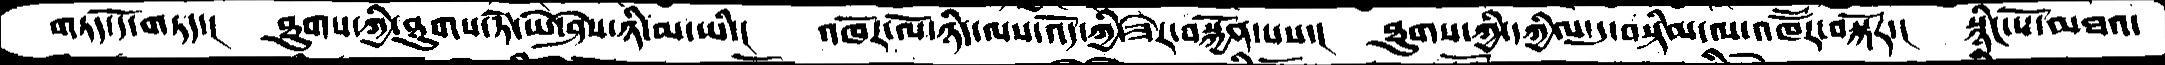གཏད་དོ་གཏད་།  ཐུགས་ཀྱི་ཐུགས་ཏེ་ཡེ་ཤེས་ཉི་མ་ཡི་།  འཁོར་ལོ་ཉིད་ལས་འོད་ཀྱི་ཟེར་བསྐྱོན་པས་།  ཐུགས་ཀྱི་དཀྱིལ་དུ་བསྟིམ་ལ་འཁཽར་བསྐོར་།  སྙིང་པོ་མཐའ་
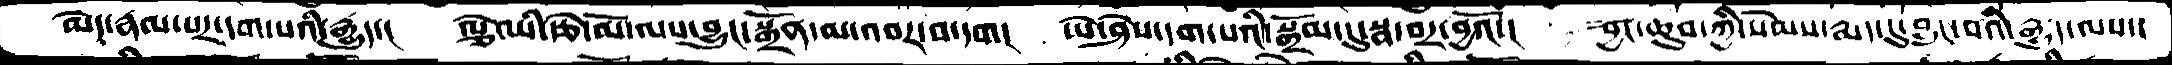མེད་རྣམ་པར་དག་པའི་རྒྱུད་།   ལྕེ་ཡི་རྩེ་མོ་ལས་བྱུང་སྒྲོན་མ་འབར་བ་དག།  ཡེ་ཤེས་དག་པའི་སྒྲོམ་དུ་སྣ་བར་བྱའོ་།  བྱང་ཆུབ་ཀྱི་སེམས་རྨད་དུ་བྱུང་བའི་རྒྱུད་ལས་།
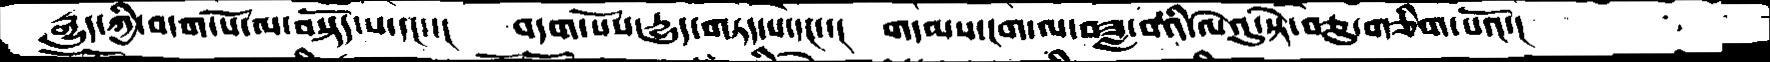རྒྱུད་ཀྱི་བདག་པོ་ལ་བསྟོད་པ་དང་་།  བདག་པོས་དྱུད་གཏད་པ་དང་་།  གདམས་ངག་ལ་བཟླ་བའི་ལེའུ་སྟེ་བཅུ་གཅིག་པའོ་།
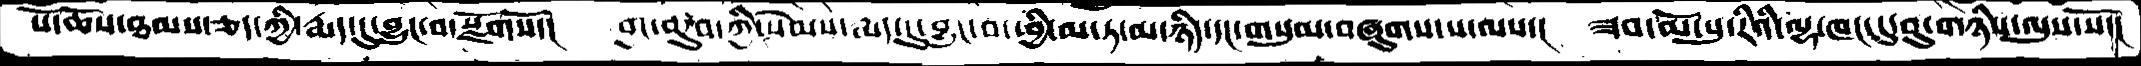སོ་ཆོས་ཐམས་ཅད་ཀྱི་རྨད་དུ་བྱུང་བ་སྫོགསོ་།  བྱང་ཆུབ་ཀྱི་སེམས་རྨད་དུ་བྱུང་བ་ཕྱི་མ་ཏ་མ་ཉིད་དང་གསུམ་ཞུགས་པ་ལས་།  ཟབ་མོ་སུ་རིའི་ལྷ་ཁང་དུ་བུ་གཉིས་ལུས་སོ་།
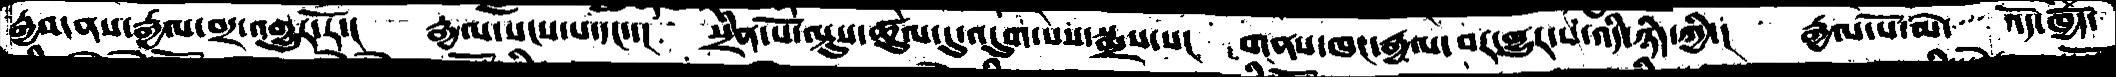རྒྱབ་ནས་རྒྱལ་བར་འགྱུར་རོ་།  རྒྱལ་སངས་པ་དང་་།  སྲིན་པོ་ལྟུས་ཚུལ་དུ་འདུག་པས་སྨྲས་པ།  གནས་ཁང་རྒྱལ་བར་གྱུར་པ་འདི་ཉིད་ཀྱི་།  རྒྱལ་པོ་མེ་  འོད་ཁྱེད་
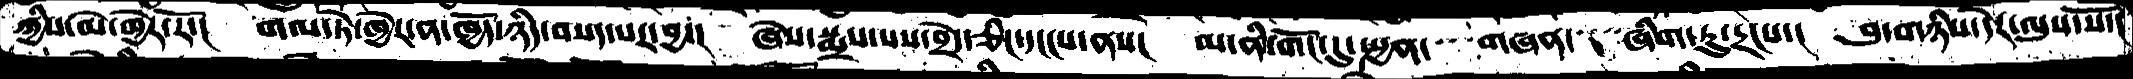ཀྱིས་མེ་ཁྱེར་རོ་།  གལ་ཏེ་ཁྱེར་ན་ཁྱོད་ཉིད་བསད་པར་བྱ་།  ཞེས་སྨྲས་པས་བྲེད་ཅིང་དངངས་ནས་།  མ་ནི་གོང་དུ་སྤྱན་   གཞན་   ཞིག་ཏུ་དྲངས་།  བུ་གཉིས་དེར་ལུས་སོ་།
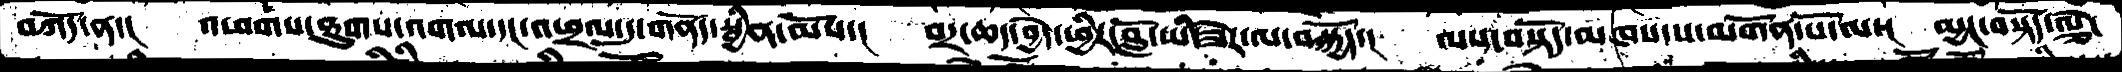བཀོད་ན་།  འཕགས་ཐུགས་འགལ་དང་འཕྲལ་དུ་གནོད་སྦྱིན་མོས་།  བར་ཆད་བྱེད་ཕྱིར་བློ་ཡི་ཟེར་ལ་བསྐྱོད་།  ལས་བསྟོད་མཁས་པ་མགོན་པོ་ལ་།  མྱང་བསྟོད་ལྕེ་
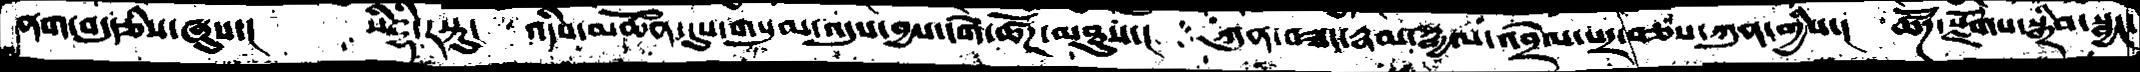ནག་བདུརྩིས་ཞུས་།     སིདྡྷི་རསྟུ་   འདིས་མཚོན་དུས་གསུམ་འདུས་བྱས་དགེ་ཚོཌ་མཐུས་།   ཀུན་བཟང་རྣམ་རྒྱལ་འབྲེལ་པར་བཅས་ཀུན་གྱིས་།    ཚོཌ་སྫོགས་སྒྲིབ་སྦྱང་
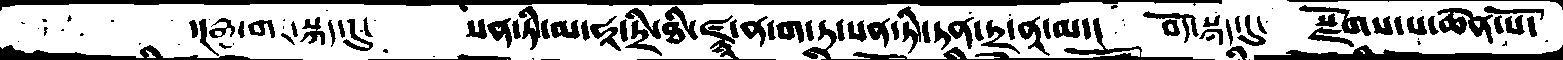་།རྒྱ་གར་སྐད་དུ་     སན་ཏི་མ་ཧཱ་ཏྲི་ཐི་ཛྙཱ་ན་ག་ཏ་སན་ཏི་ཏན་ཏྲ་ནཱ་མ་།    བོད་སྐད་དུ།    སྫོགས་པ་ཆེན་པོ་
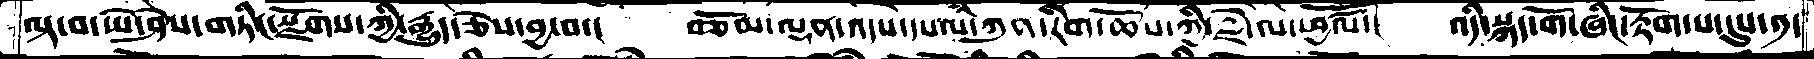ལྟ་བ་ཡེ་ཤེས་གཏིང་སྫོགས་ཀྱི་རྒྱུད་ཅེས་བྱ་བ་།    བཅོམ་ལྡན་འདས་དཔལ་ཀུན་རིག་ཆོས་ཀྱི་རྗེ་ལ་ཕྱཚལོ་།   འདི་སྐད་གོ་ཞིང་རྟོག་པ་དུས་༡་
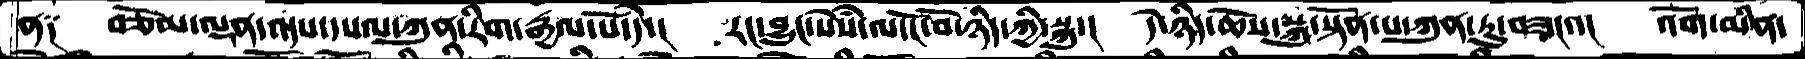ན༑   བཅོམ་ལྡན་འདས་དཔལ་ཀུན་རིག་རྒྱལ་པོ་དེ་།    རང་བྱུང་སེསཾ་ལ་ངོ་བོ་ཉིད་ཀྱི་སྐུ་།   དེ་ཉིད་ཆོས་སྐུ་སྟོན་པ་ཀུན་ཏུ་བཟང་་།   འོག་མིན་
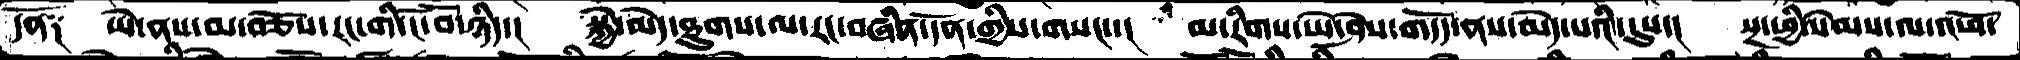དོན༑   ཡེ་ནས་མ་བཅོས་རང་གི་ངོ་བོ་ཉིད་།   སྐྱེ་མེད་ཐུགས་ལ་རང་བཞིན་དོན་གྱིས་གསང་་།  མ་རིགས་ཡེ་ཤེས་གདོད་ནས་མེད་པའི་དུས་།  སྔ་ཕྱི་སེམས་ལ་འཕོ་
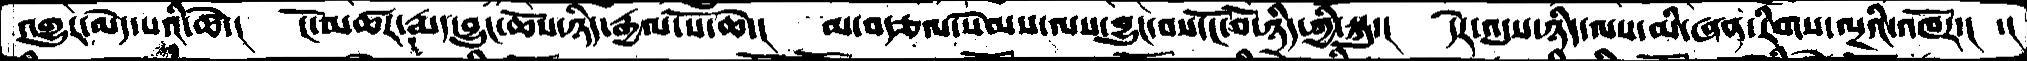འགྱུར་མེད་པའི་ཚེ་།  ངོ་མཚར་རྨད་བྱུང་ཆོས་ཉིད་རྒྱལ་པོ་ཆེ་།  མ་བརྩལ་སེམས་ལས་བྱུང་བས་ངོ་བོ་ཉིད་ཀྱི་སྐུ་།  དེར་འདུས་ཉིད་ལས་མི་ཞན་རིགས་ལྔའི་འཁོར་།  ་།
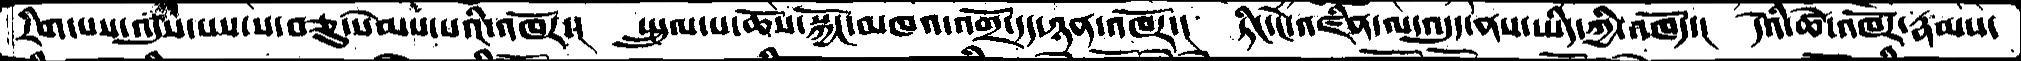རིག་པས་འདུས་པས་ས་བཅུ་སེམས་པའི་འཁོར་།  སྤྲུལ་པ་ཆོས་སྐྱོང་མཁའ་འགྲོ་དད་ཉན་འཁོར་།  ཏིང་ངེ་འཛིན་ལ་འདུད་ནས་ཡིད་ཀྱི་འཁོད་།  དེའི་ཚེ་འཁོར་རྣམས་
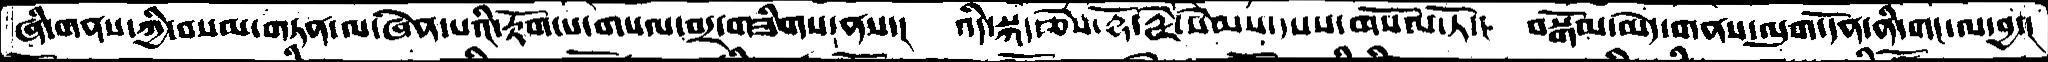ཞི་གནས་ཀྱི་བསམ་གཏན་ལ་ཞེན་པའི་རྟོག་པ་གསལ་བར་གཟིགས་ནས་།   འདི་སྐད་ཅེས་རྡོ་རྗེ་སེམས་དཔས་གསོལ་ཏོ་།   བསྒོམ་མེད་གནས་ལུག་དོན་ནི་གང་ལ་བྱ་།
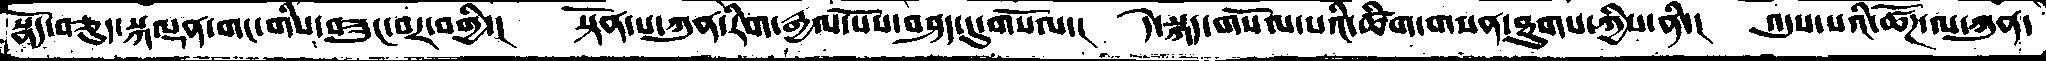སྣོད་བཅུད་སྐལྡན་གང་གི་བཟུང་བར་བགྱི་།   སྟོན་པ་ཀུན་རིག་རྒྱལ་པོས་བཤད་དུ་གསོལ་།   དེ་སྐད་གསོལ་པའི་ཚིག་གསན་ཐུགས་ཀྱིས་ནི་།   འདུས་པའི་ཚོཌ་ལ་ཀུན་
